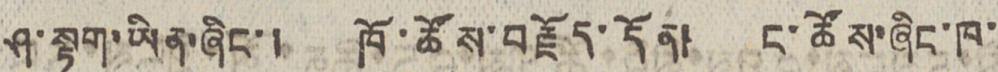ཤ་སྟག་ཡིན་ཞིང་། ཁོ་ཚོས་བརྗོད་དོན། ང་ཚོས་ཞིང་ཁ་
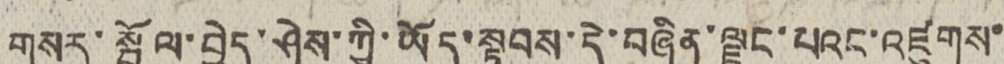གསར་སྦོལ་བྱེད་ཤེས་ཀྱི་ཡོད་སྟབས་དེ་བཞིན་ལྗང་པའང་འཛུགས་
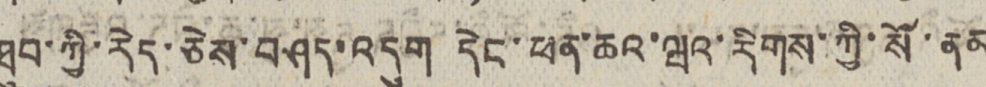ཐུབ་ཀྱི་རེད་ཅེས་བཤད་འདུག དེང་ཕན་ཆའ་ཝའ་རིགས་ཀྱི་སོ་ནམ
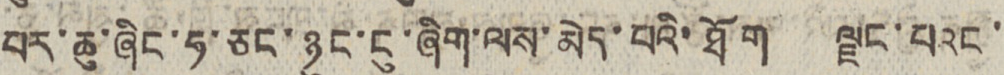པར་ཆུ་ཞིང་ཧ་ཅང་ཉུང་ངུ་ཞིག་ལས་མེད་པའི་ཐོག ལྗང་པའང་
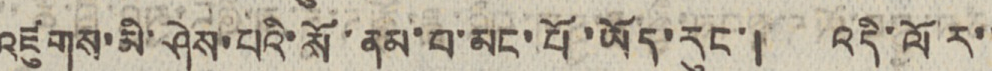འཛུགས་མི་ཤེས་པའི་སོ་ནམ་པ་མང་པོ་ཡོད་རུང་། འདི་ལོར་་
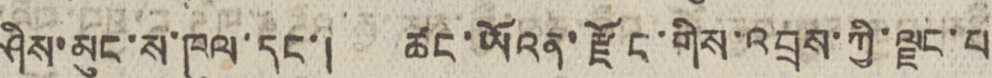ཤིས་མུང་ས་ཁུལ་དང་། ཚང་ཡོའན་རྫོང་གིས་འབྲས་ཀྱི་ལྗང་པ་
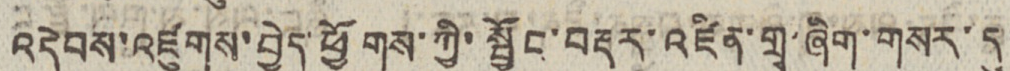འདེབས་འཛུགས་བྱེད་ཕྱོགས་ཀྱི་སྦྱོང་བརྡར་འཛིན་གྲྭ་ཞིག་གསར་དུ་
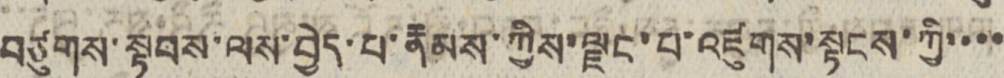བཙུགས་སྟབས་ལས་བྱེད་པ་རྣམས་ཀྱིས་ལྗང་པ་འཛུགས་སྟངས་ཀྱི་་་་
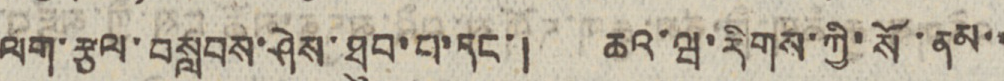ལག་རྩལ་བསླབས་ཤེས་ཐུབ་པ་དང་། ཆའ་ཝ་རིགས་ཀྱི་སོ་ནམ་་
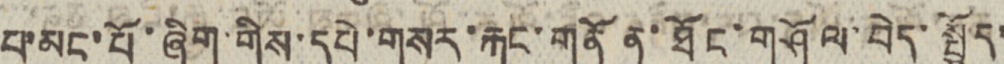པ་མང་པོ་ཞིག་གིས་དཔེ་གསར་རྐང་གནོན་ཐོང་གཤོལ་བེད་སྤྱོད་
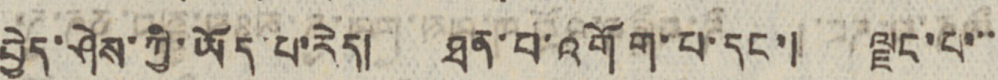བྱེད་ཤེས་ཀྱི་ཡོད་པ་རེད། ཐན་པ་འགོག་པ་དང་། ལྗང་པ་་་་
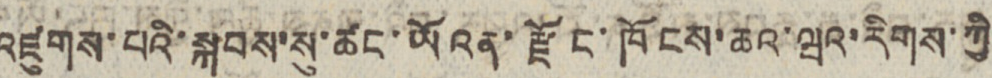འཛུགས་པའི་སྐབས་སུ་ཚང་ཡོའན་རྫོང་ཁོངས་ཆའ་ཝའ་རིགས་ཀྱི་
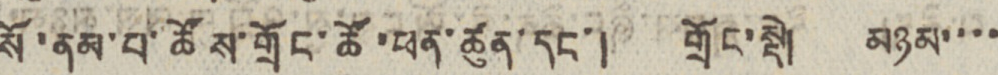སོ་ནམ་པ་ཚོས་གྲོང་ཚོ་ཕན་ཚུན་དང་། གྲོང་སྡེ། མཉམ་་་་
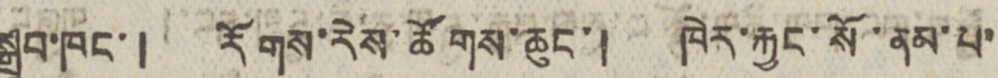སྒྲུབ་ཁང་། རོགས་རེས་ཚོགས་ཆུང་། ཁེར་རྐྱང་སོ་ནམ་པ་
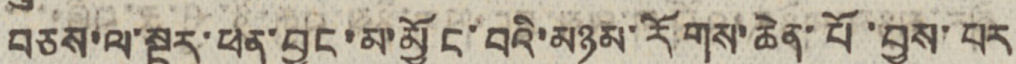བཅས་ལ་སྔར་ཕན་བྱུང་མ་མྱོང་བའི་མཉམ་རོགས་ཆེན་པོ་བྱས་པར
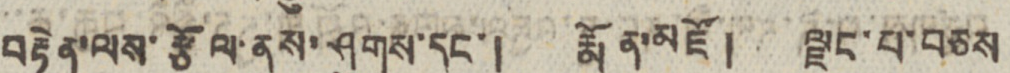བརྟེན་ལས་རྩོལ་ནུས་ཤུགས་དང་། རྨོན་མཛོ། ལྗང་པ་བཅས
